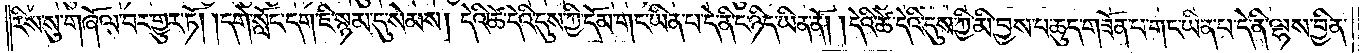རིས་སུ་གཞོལ་བར་གྱུར་ཏོ། །དགེ་སློང་དག་ཇི་སྙམ་དུ་སེམས། དེའི་ཚེ་དེའི་དུས་ཀྱི་དོམ་གང་ཡིན་པ་དེ་ནི་ང་ཉིད་ཡིན་ནོ། །དེའི་ཚེ་དེའི་དུས་ཀྱི་མི་བྱས་པ་ཆུད་གཟོན་པ་གང་ཡིན་པ་དེ་ནི་ལྷས་བྱིན་
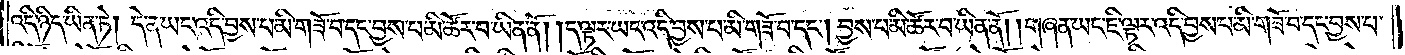འདི་ཉིད་ཡིན་ཏེ། དེ་ན་ཡང་འདི་བྱས་པ་མི་གཟོ་བ་དང་བྱས་པ་མི་ཚོར་བ་ཡིན་ནོ། །ད་ལྟར་ཡང་འདི་བྱས་པ་མི་གཟོ་བ་དང༌། བྱས་པ་མི་ཚོར་བ་ཡིན་ནོ། །གཞན་ཡང་ཇི་ལྟར་འདི་བྱས་པ་མི་གཟོ་བ་དང་བྱས་པ་
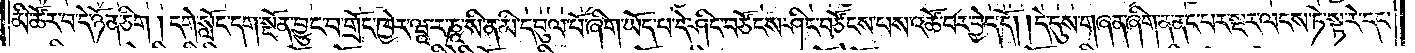མི་ཚེར་བ་དེ་ཉོན་ཅིག །དགེ་སློང་དག་སྔོན་བྱུང་བ་གྲོང་ཁྱེར་ཝཱ་ར་ཎཱ་སི་ན་མི་དབུལ་པོ་ཞིག་ཡོད་པ་དེ་ཤིང་བཙོངས་ཤིང་བཙོངས་པས་འཚོ་བར་བྱེད་དོ། །དེ་དུས་གཞན་ཞིག་ན་ནང་པར་སྔར་ལངས་ཏེ་སྟ་རེ་དང་
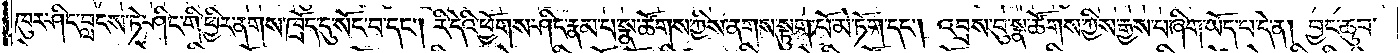ཁུར་ཤིང་བླངས་ཏེ་ཤིང་གི་ཕྱིར་ནགས་ཁྲོད་དུ་སོང་བ་དང༌། རི་དེའི་ཕྱོགས་ཤིང་རྣམ་པ་སྣ་ཚོགས་ཀྱིས་ནགས་སྟུག་པོ་མེ་ཏོག་དང༌། འབྲས་བུ་སྣ་ཚོགས་ཀྱིས་རྒྱས་པ་ཞིག་ཡོད་པ་དེ་ན། བྱང་ཆུབ་
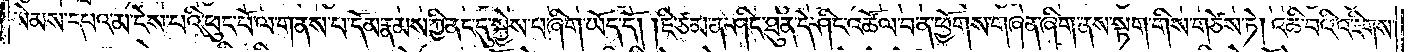སེམས་དཔའ་མ་ངེས་པའི་ཕུང་པོ་ལ་གནས་པ་དོམ་རྣམས་ཀྱི་ནང་དུ་སྐྱེས་པ་ཞིག་ཡོད་དོ། །ཇི་ཙམ་ན་ཤིང་ཐུན་དེ་ཤིང་འཚོལ་བ་ན་ཕྱོགས་གཞན་ཞིག་ནས་སྟག་གིས་གཙེས་ཏེ། འཆི་བའི་འཇིགས་
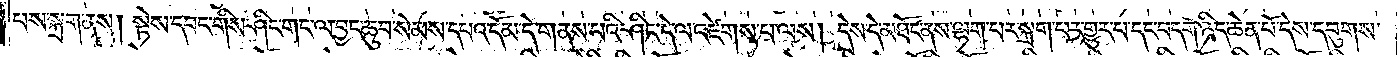པས་སྐྲག་ནས། སྟེས་དབང་གིས་ཤིང་གང་ལ་བྱང་ཆུབ་སེམས་དཔའ་དོམ་དེ་གནས་པའི་ཤིང་དེ་ལ་འཛེགས་པ་ལས། དེས་དེ་མཐོང་ནས་ལྷག་པར་སྐྲག་པར་གྱུར་པ་དང་བདག་ཉིད་ཆེན་པོ་དེས་དབུགས་
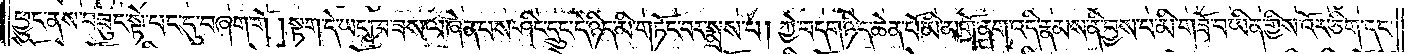ཕྱུང་ནས་བཟུང་སྟེ་པང་དུ་བཞག་གོ །སྟག་དེ་ཡང་ཁ་ཟས་ལ་ཞེན་པས་ཤིང་དྲུང་དེ་ཉིད་མི་གཏོང་བར་སྨྲས་པ། ཀྱེ་བདག་ཉིད་ཆེན་པོ་མི་མགོ་ནག་འདི་རྣམས་ནི་བྱས་པ་མི་གཟོ་བ་ཡིན་གྱིས་འོར་ཅིག་དང་
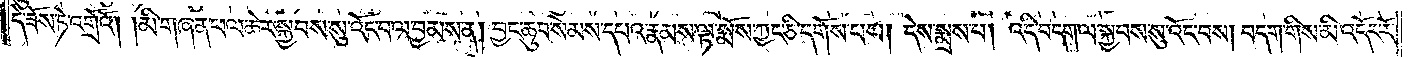དེ་ཟོས་ཏེ་འགྲོའོ། །མི་གཞན་ཕལ་ཆེར་སྐྱབས་སུ་འོང་བ་ལ་བྱམས་ན། བྱང་ཆུབ་སེམས་དཔའ་རྣམས་ལྟ་སྨོས་ཀྱང་ཅི་དགོས་པས། དེས་སྨྲས་པ། འདི་བདག་ལ་སྐྱབས་སུ་འོང་བས། བདག་གིས་མི་འདོར་རོ་
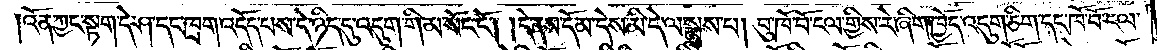འོན་ཀྱང་སྟག་དེ་ཤ་དང་ཁྲག་འདོད་པས་དེ་ཉིད་དུ་འདུག་གི་མ་སོང་ངོ༌། །དེ་ནས་དོམ་དེས་མི་དེ་ལ་སྨྲས་པ། བུ་ཁོ་བོ་ངལ་གྱིས་རེ་ཞིག་ཁྱོད་འདུག་ཅིག་དང་ཁོ་བོ་ངལ་
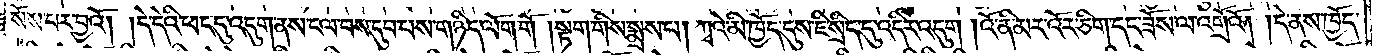སོས་པར་བྱའོ། །དེ་དེའི་ཕང་དུ་འདུག་ནས་ངལ་བས་དུབ་པས་གཉིད་ལོག་གོ །སྟག་གིས་སྨྲས་པ། ཀྭའི་མི་ཁྱོད་དུས་ཇི་སྲིད་དུ་འདིར་འདུག །འོ་ནི་མར་འོར་ཅིག་དང་ཟོས་ལ་འགྲོའོ། །དེ་ནས་ཁྱོད་
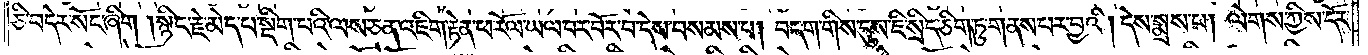ཅི་བདེར་སོང་ཞིག །སྙིང་རྗེ་མེད་པ་སྡིག་པའི་ལས་ཅན་འཇིག་རྟེན་ཕ་རོལ་ཡལ་བར་བོར་བ་དེས་བསམས་པ། བདག་གིས་དུས་ཇི་སྲིད་ཅིག་ཏུ་གནས་པར་བྱའི། དེས་སྨྲས་པ། ལེགས་ཀྱིས་དོར་
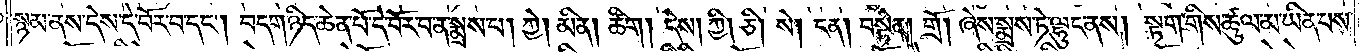སྙམ་ནས་དེས་དེ་བོར་བ་དང༌། བདག་ཉིད་ཆེན་པོ་དེ་བོར་བ་ན་སྨྲས་པ། ཀྱེ། མིན། ཚིག །དེས། ཀྱི། ཅི། སེ། ངན། བསྟེན། གྲོ། ཞེས་སྨྲས་ཏེ་ལྷུང་ནས། སྟག་གིས་ཚུལ་མ་ཡིན་པས་
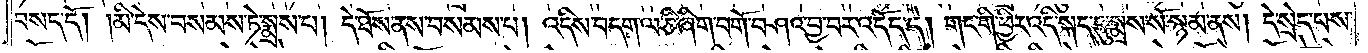བསད་དོ། །མི་དེས་བསམས་ཏེ་སྨྲས་པ། དེ་ཐོས་ནས་བསམས་པ། འདིས་བདག་ལ་ཇི་ཞིག་བགོ་བཤའ་བྱ་བར་འདོད་དེ། གང་གི་ཕྱིར་འདི་སྐད་ཅེས་སྨྲས་སོ་སྙམ་ནས། དེ་སྲེད་པས་
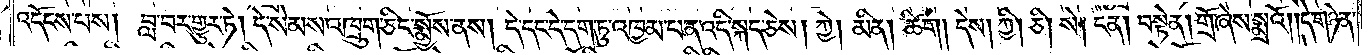འདོངས་པས། བླ་བར་གྱུར་ཏེ། དེ་སེམས་འཁྲུགས་ཤིད་སྨྱོས་ནས། ཏེ་དང་དེ་དག་ཏུ་འཁྱམ་པ་ན་འདི་སྐད་ཅེས། ཀྱེ། མིན། ཚིག། དེས། ཀྱི། ཅི། སེ། ངན། བསྟེན། གྲོ་ཞེས་སྨྲའོ། །དེ་གཉེན་
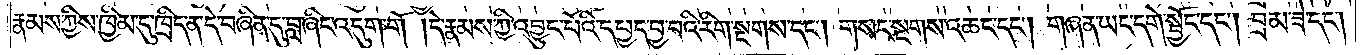རྣམས་ཀྱིས་ཁྱིམ་དུ་ཁྲིད་ན་དེ་བཞིན་དུ་བླ་ཞིང་འདུག་གོ །དེ་རྣམས་ཀྱི་འབྱུང་པོའི་དཔྱད་བྱ་བའི་རིག་སྔགས་དང༌། གསང་སྔགས་འཆང་དང༌། གཞན་ཡང་དགེ་སྦྱོང་དང༌། བྲམ་ཟེ་དང༌།
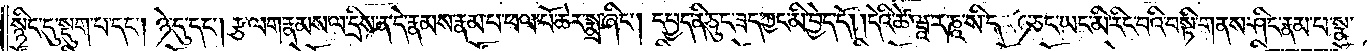སྙིང་དུ་སྡུག་པ་དང༌། ཉེ་དུ་དང༌། རྩ་ལག་རྣམས་ལ་དྲིས་ན་དེ་རྣམས་རྣམ་པ་ཕལ་པོ་ཆེར་སྨྲ་ཞིང༌། དཔྱད་ནི་ཅུང་ཟད་ཀྱང་མི་བྱེད་དོ། །དེའི་ཚེ་ཝཱ་ར་ཎཱ་སི་དང་ཧ་ཅང་ཡང་མི་རིང་བའི་བསྟི་གནས་ཤིང་རྣམ་པ་སྣ་
